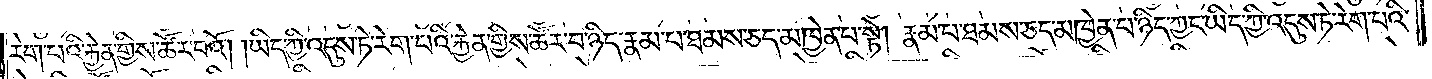རེག་པའི་རྐྱེན་གྱིས་ཚོར་བའོ། །ཡིད་ཀྱི་འདུས་ཏེ་རེག་པའི་རྐྱེན་གྱིས་ཚོར་བ་ཉིད་རྣམ་པ་ཐམས་ཅད་མཁྱེན་པ་སྟེ། རྣམ་པ་ཐམས་ཅད་མཁྱེན་པ་ཉིད་ཀྱང་ཡིད་ཀྱི་འདུས་ཏེ་རེག་པའི་
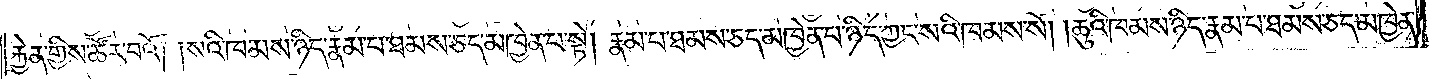རྐྱེན་གྱིས་ཚོར་བའོ། །སའི་ཁམས་ཉིད་རྣམ་པ་ཐམས་ཅད་མཁྱེན་པ་སྟེ། རྣམ་པ་ཐམས་ཅད་མཁྱེན་པ་ཉིད་ཀྱང་སའི་ཁམས་སོ། །ཆུའི་ཁམས་ཉིད་རྣམ་པ་ཐམས་ཅད་མཁྱེན་
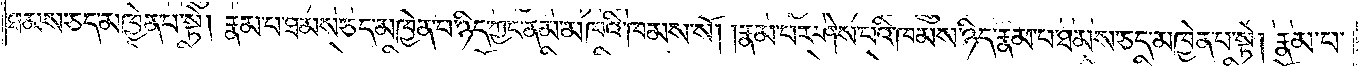ཐམས་ཅད་མཁྱེན་པ་སྟེ། རྣམ་པ་ཐམས་ཅད་མཁྱེན་པ་ཉིད་ཀྱང་ནམ་མཁའི་ཁམས་སོ། །རྣམ་པར་ཤེས་པའི་ཁམས་ཉིད་རྣམ་པ་ཐམས་ཅད་མཁྱེན་པ་སྟེ། རྣམ་པ་
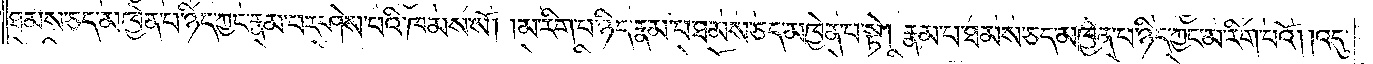ཐམས་ཅད་མཁྱེན་པ་ཉིད་ཀྱང་རྣམ་པར་ཤེས་པའི་ཁམས་སོ། །མ་རིག་པ་ཉིད་རྣམ་པ་ཐམས་ཅད་མཁྱེན་པ་སྟེ། རྣམ་པ་ཐམས་ཅད་མཁྱེན་པ་ཉིད་ཀྱང་མ་རིག་པའོ། །འདུ་
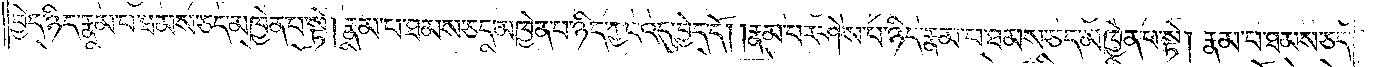བྱེད་ཉིད་རྣམ་པ་ཐམས་ཅད་མཁྱེན་པ་སྟེ། རྣམ་པ་ཐམས་ཅད་མཁྱེན་པ་ཉིད་ཀྱང་འདུ་བྱེད་དོ། །རྣམ་པར་ཤེས་པ་ཉིད་རྣམ་པ་ཐམས་ཅད་མཁྱེན་པ་སྟེ། རྣམ་པ་ཐམས་ཅད་
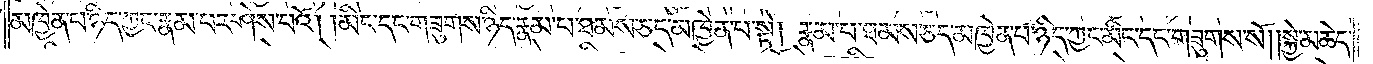མཁྱེན་པ་ཉིད་ཀྱང་རྣམ་པར་ཤེས་པའོ། །མིང་དང་གཟུགས་ཉིད་རྣམ་པ་ཐམས་ཅད་མཁྱེན་པ་སྟེ། རྣམ་པ་ཐམས་ཅད་མཁྱེན་པ་ཉིད་ཀྱང་མིང་དང་གཟུགས་སོ། །སྐྱེ་མཆེད་
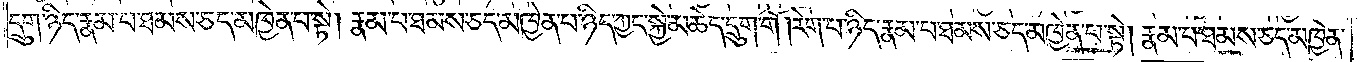དྲུག་ཉིད་རྣམ་པ་ཐམས་ཅད་མཁྱེན་པ་སྟེ། རྣམ་པ་ཐམས་ཅད་མཁྱེན་པ་ཉིད་ཀྱང་སྐྱེ་མཆེད་དྲུག་གོ །རེག་པ་ཉིད་རྣམ་པ་ཐམས་ཅད་མཁྱེན་པ་སྟེ། རྣམ་པ་ཐམས་ཅད་མཁྱེན་
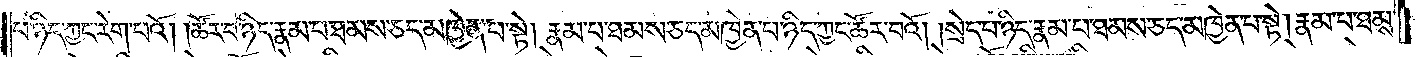པ་ཉིད་ཀྱང་རེག་པའོ། །ཚོར་བ་ཉིད་རྣམ་པ་ཐམས་ཅད་མཁྱེན་པ་སྟེ། རྣམ་པ་ཐམས་ཅད་མཁྱེན་པ་ཉིད་ཀྱང་ཚོར་བའོ། །སྲེད་པ་ཉིད་རྣམ་པ་ཐམས་ཅད་མཁྱེན་པ་སྟེ། རྣམ་པ་ཐམས་
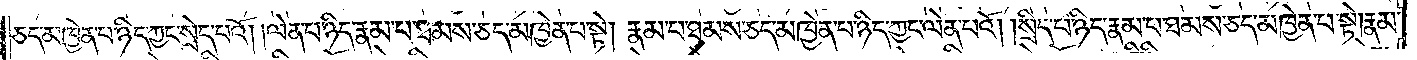ཅད་མཁྱེན་པ་ཉིད་ཀྱང་སྲེད་པའོ། །ལེན་པ་ཉིད་རྣམ་པ་ཐམས་ཅད་མཁྱེན་པ་སྟེ། རྣམ་པ་ཐམས་ཅད་མཁྱེན་པ་ཉིད་ཀྱང་ལེན་པའོ། །སྲིད་པ་ཉིད་རྣམ་པ་ཐམས་ཅད་མཁྱེན་པ་སྟེ། རྣམ་
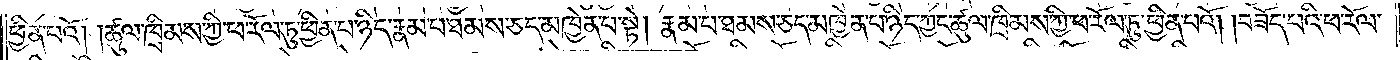ཕྱིན་པའོ། །ཚུལ་ཁྲིམས་ཀྱི་ཕ་རོལ་ཏུ་ཕྱིན་པ་ཉིད་རྣམ་པ་ཐམས་ཅད་མཁྱེན་པ་སྟེ། རྣམ་པ་ཐམས་ཅད་མཁྱེན་པ་ཉིད་ཀྱང་ཚུལ་ཁྲིམས་ཀྱི་ཕ་རོལ་ཏུ་ཕྱིན་པའོ། །བཟོད་པའི་ཕ་རོལ་
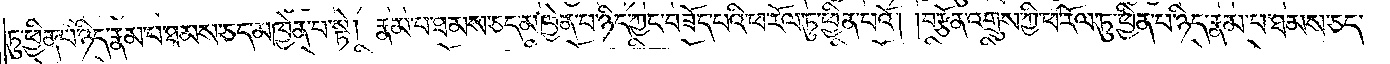ཏུ་ཕྱིན་པ་ཉིད་རྣམ་པ་ཐམས་ཅད་མཁྱེན་པ་སྟེ། རྣམ་པ་ཐམས་ཅད་མཁྱེན་པ་ཉིད་ཀྱང་བཟོད་པའི་ཕ་རོལ་ཏུ་ཕྱིན་པའོ། །བརྩོན་འགྲུས་ཀྱི་ཕ་རོལ་ཏུ་ཕྱིན་པ་ཉིད་རྣམ་པ་ཐམས་ཅད་
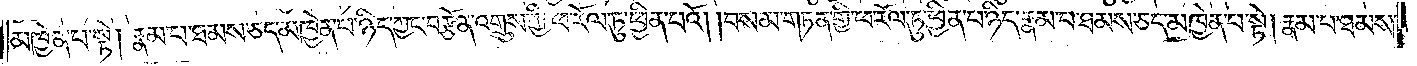མཁྱེན་པ་སྟེ། རྣམ་པ་ཐམས་ཅད་མཁྱེན་པ་ཉིད་ཀྱང་བརྩོན་འགྲུས་ཀྱི་ཕ་རོལ་ཏུ་ཕྱིན་པའོ། །བསམ་གཏན་གྱི་ཕ་རོལ་ཏུ་ཕྱིན་པ་ཉིད་རྣམ་པ་ཐམས་ཅད་མཁྱེན་པ་སྟེ། རྣམ་པ་ཐམས་
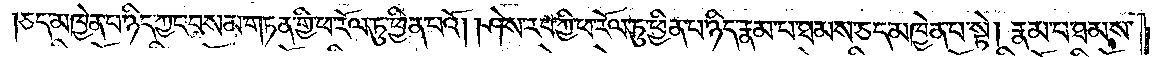ཅད་མཁྱེན་པ་ཉིད་ཀྱང་བསམ་གཏན་གྱི་ཕ་རོལ་ཏུ་ཕྱིན་པའོ། །ཤེས་རབ་ཀྱི་ཕ་རོལ་ཏུ་ཕྱིན་པ་ཉིད་རྣམ་པ་ཐམས་ཅད་མཁྱེན་པ་སྟེ། རྣམ་པ་ཐམས་
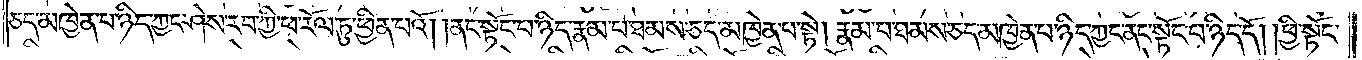ཅད་མཁྱེན་པ་ཉིད་ཀྱང་ཤེས་རབ་ཀྱི་ཕ་རོལ་ཏུ་ཕྱིན་པའོ། །ནང་སྟོང་པ་ཉིད་རྣམ་པ་ཐམས་ཅད་མཁྱེན་པ་སྟེ། རྣམ་པ་ཐམས་ཅད་མཁྱེན་པ་ཉིད་ཀྱང་ནང་སྟོང་པ་ཉིད་དོ། །ཕྱི་སྟོང་
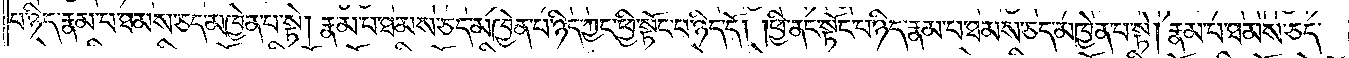པ་ཉིད་རྣམ་པ་ཐམས་ཅད་མཁྱེན་པ་སྟེ། རྣམ་པ་ཐམས་ཅད་མཁྱེན་པ་ཉིད་ཀྱང་ཕྱི་སྟོང་པ་ཉིད་དོ། །ཕྱི་ནང་སྟོང་པ་ཉིད་རྣམ་པ་ཐམས་ཅད་མཁྱེན་པ་སྟེ། རྣམ་པ་ཐམས་ཅད་
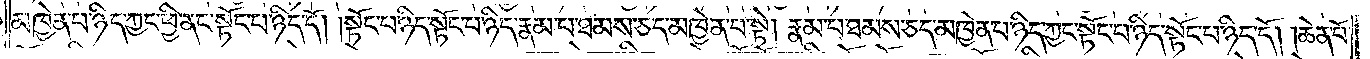མཁྱེན་པ་ཉིད་ཀྱང་ཕྱི་ནང་སྟོང་པ་ཉིད་དོ། །སྟོང་པ་ཉིད་སྟོང་པ་ཉིད་རྣམ་པ་ཐམས་ཅད་མཁྱེན་པ་སྟེ། རྣམ་པ་ཐམས་ཅད་མཁྱེན་པ་ཉིད་ཀྱང་སྟོང་པ་ཉིད་སྟོང་པ་ཉིད་དོ། །ཆེན་པོ་
